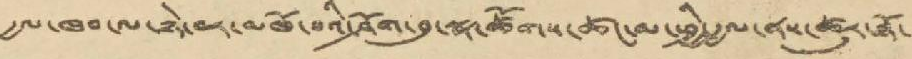རྒྱལ་ཁབ་ལ་ཉེ་བར་མཁོ་བའི་ཤོག་བུ་སྣ་ཚོགས་ཚང་མ་ཕྱི་རྒྱལ་ནས་ཚུར་ཉོ་
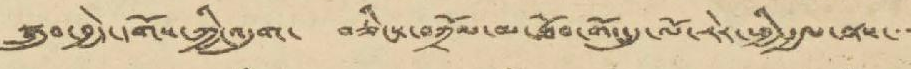སྒྲུབ་བྱེད་དགོས་ཀྱི་འདུག་ བཅིངས་བཀྲོལ་མ་ཐོབ་གོང་དུ་ལོ་རེར་ཕྱི་རྒྱལ་ནས་་་
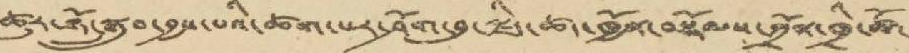ཚུར་ཉོ་སྒྲུབ་བྱས་པའི་ཚག་པར་ཤོག་བུ་ལྗིད་ཚད་ཁྱོན་བསྡོམས་ཀྲོན་ཁྲི་ཚོ་
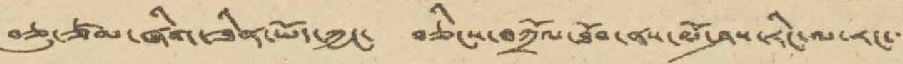བཅུ་ཙམ་ཞིག་ཟིན་ཡོད་ཀྱང་ བཅིངས་བཀྲོལ་ཐོབ་ནས་ལོ་ཤས་རིང་ལ་རང་་་
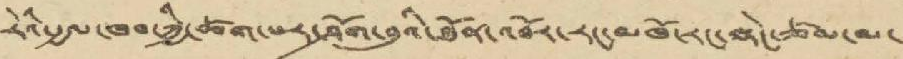རེའི་རྒྱལ་ཁབ་ཀྱི་ཚག་པར་ཤོག་བུའི་ཐོན་འབོར་རང་མཁོ་རང་ལྡེང་ཙམ་མ་
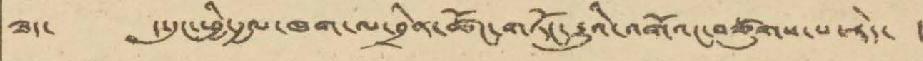ཟད་ ད་དུང་ཕྱི་རྒྱལ་ཁག་ལ་བྲིན་ཚོང་གཏོང་རྒྱུའི་འགོའང་བཙུགས་པ་རེད་ །
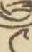༩
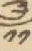༡༡
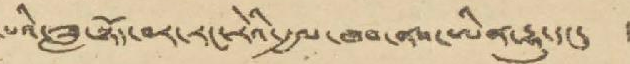པའི་ཟླ་སྟོད་བར་རང་རེའི་རྒྱལ་ཁབ་ནས་ཨིན་རྒྱུ་དང་ །
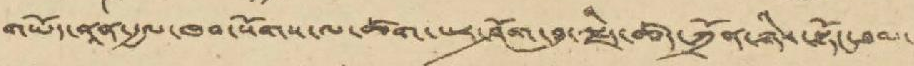གཡོད་ནཱན་རྒྱལ་ཁབ་སོགས་ལ་ཚག་པར་ཤོག་བུ་ལྗིད་ཚད་ཀྲོན་ཉིས་སྟོང་ཐམ་
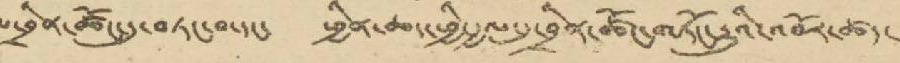པ་བྲིན་ཚོང་དུ་བཏང་བ་དང་ ཕྱིན་ཆད་ཕྱི་རྒྱལ་དུ་བྲིན་ཚོང་གཏོང་རྒྱུའི་འབོར་ཚད་
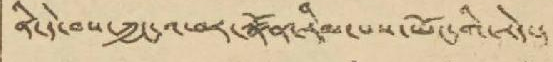ནི་དེ་བས་ཀྱང་འཕར་སྣོན་རིམ་པས་ཡོང་གི་རེད་།
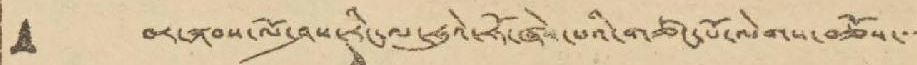• བར་སྐབས་ལོ་ཤས་རིང་ལ་ཧུའེ་ཧོ་ཞེས་པའི་གཙང་པོ་ལེགས་བཅོས་་་
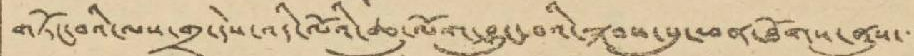གཏོང་བའི་ལས་གྲྭ་དེས་འདི་ལོའི་ཆུ་ལོག་བྱུང་བའི་སྐབས་སུ་ཕན་ཐོག་ནུས་་་
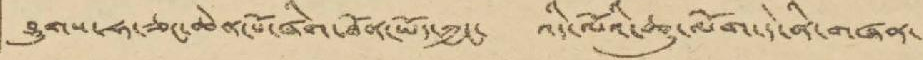ཤུགས་ཧ་ཅང་ཆེན་པོ་ཞིག་ཐོན་ཡོད་ཀྱང་ འདི་ལོའི་ཆུ་ལོག་དེ་ནི་གཞན་
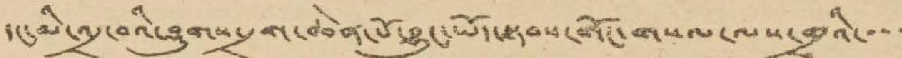དང་མི་འདྲ་བའི་ཤུགས་དྲག་ཆེན་པོ་བྱུང་ཡོད་སྟབས་གོང་གསལ་ལས་གྲྭའི་་་་
